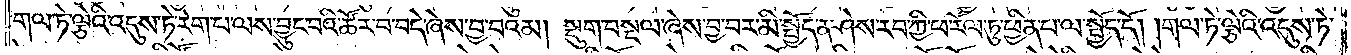གལ་ཏེ་ལྕེའི་འདུས་ཏེ་རེག་པ་ལས་བྱུང་བའི་ཚོར་བ་བདེ་ཞེས་བྱ་བའམ། སྡུག་བསྔལ་ཞེས་བྱ་བར་མི་སྤྱོད་ན་ཤེས་རབ་ཀྱི་ཕ་རོལ་ཏུ་ཕྱིན་པ་ལ་སྤྱོད་དོ། །གལ་ཏེ་ལྕེའི་འདུས་ཏེ་
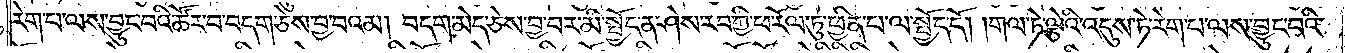རེག་པ་ལས་བྱུང་བའི་ཚོར་བ་བདག་ཅེས་བྱ་བའམ། བདག་མེད་ཅེས་བྱ་བར་མི་སྤྱོད་ན་ཤེས་རབ་ཀྱི་ཕ་རོལ་ཏུ་ཕྱིན་པ་ལ་སྤྱོད་དོ། །གལ་ཏེ་ལྕེའི་འདུས་ཏེ་རེག་པ་ལས་བྱུང་བའི་
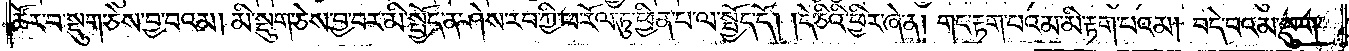ཚོར་བ་སྡུག་ཅེས་བྱ་བའམ། མི་སྡུག་ཅེས་བྱ་བར་མི་སྤྱོད་ན་ཤེས་རབ་ཀྱི་ཕ་རོལ་ཏུ་ཕྱིན་པ་ལ་སྤྱོད་དོ། །དེ་ཅིའི་ཕྱིར་ཞེ་ན། གང་རྟག་པའམ་མི་རྟག་པའམ། བདེ་བའམ་སྡུག་
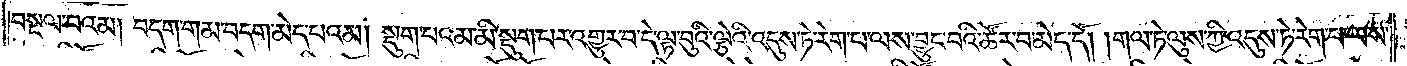བསྔལ་བའམ། བདག་གམ་བདག་མེད་པའམ། སྡུག་པའམ་མི་སྡུག་པར་འགྱུར་བ་དེ་ལྟ་བུའི་ལྕེའི་འདུས་ཏེ་རེག་པ་ལས་བྱུང་བའི་ཚོར་བ་མེད་དོ། །གལ་ཏེ་ལུས་ཀྱི་འདུས་ཏེ་རེག་པ་ལས་
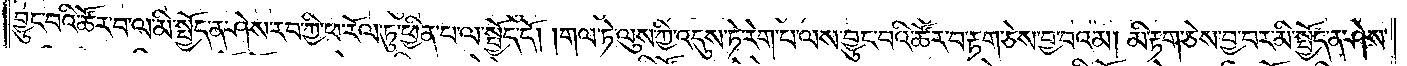བྱུང་བའི་ཚོར་བ་ལ་མི་སྤྱོད་ན་ཤེས་རབ་ཀྱི་ཕ་རོལ་ཏུ་ཕྱིན་པ་ལ་སྤྱོད་དོ། །གལ་ཏེ་ལུས་ཀྱི་འདུས་ཏེ་རེག་པ་ལས་བྱུང་བའི་ཚོར་བ་རྟག་ཅེས་བྱ་བའམ། མི་རྟག་ཅེས་བྱ་བར་མི་སྤྱོད་ན་ཤེས་
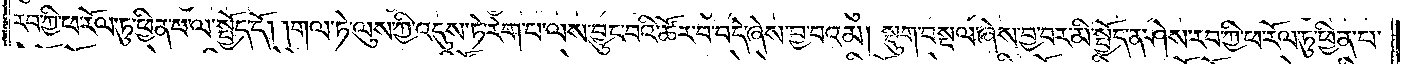རབ་ཀྱི་ཕ་རོལ་ཏུ་ཕྱིན་པ་ལ་སྤྱོད་དོ། །གལ་ཏེ་ལུས་ཀྱི་འདུས་ཏེ་རེག་པ་ལས་བྱུང་བའི་ཚོར་བ་བདེ་ཞེས་བྱ་བའམ། སྡུག་བསྔལ་ཞེས་བྱ་བར་མི་སྤྱོད་ན་ཤེས་རབ་ཀྱི་ཕ་རོལ་ཏུ་ཕྱིན་པ་
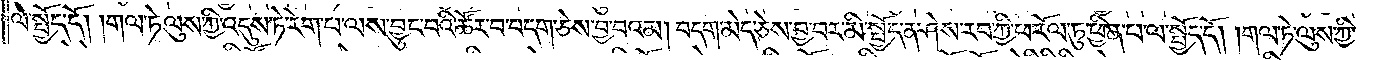ལ་སྤྱོད་དོ། །གལ་ཏེ་ལུས་ཀྱི་འདུས་ཏེ་རེག་པ་ལས་བྱུང་བའི་ཚོར་བ་བདག་ཅེས་བྱ་བའམ། བདག་མེད་ཅེས་བྱ་བར་མི་སྤྱོད་ན་ཤེས་རབ་ཀྱི་ཕ་རོལ་ཏུ་ཕྱིན་པ་ལ་སྤྱོད་དོ། །གལ་ཏེ་ལུས་ཀྱི་
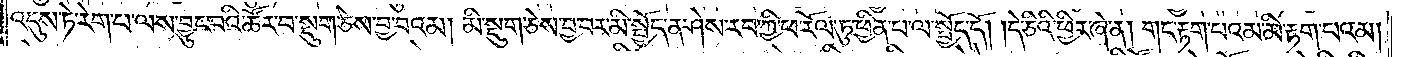འདུས་ཏེ་རེག་པ་ལས་བྱུང་བའི་ཚོར་བ་སྡུག་ཅེས་བྱ་བའམ། མི་སྡུག་ཅེས་བྱ་བར་མི་སྤྱོད་ན་ཤེས་རབ་ཀྱི་ཕ་རོལ་ཏུ་ཕྱིན་པ་ལ་སྤྱོད་དོ། །དེ་ཅིའི་ཕྱིར་ཞེ་ན། གང་རྟག་པའམ་མི་རྟག་པའམ།
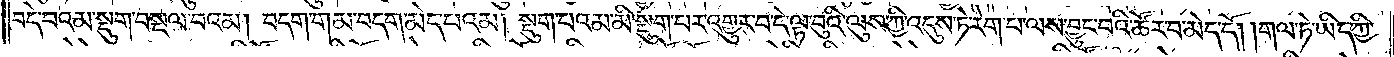བདེ་བའམ་སྡུག་བསྔལ་བའམ། བདག་གམ་བདག་མེད་པའམ། སྡུག་པའམ་མི་སྡུག་པར་འགྱུར་བ་དེ་ལྟ་བུའི་ལུས་ཀྱི་འདུས་ཏེ་རེག་པ་ལས་བྱུང་བའི་ཚོར་བ་མེད་དོ། །གལ་ཏེ་ཡིད་ཀྱི་
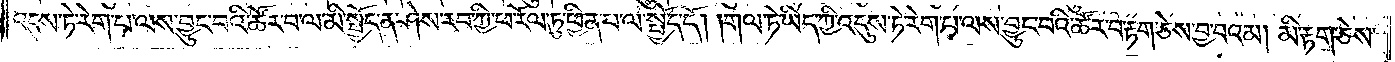འདུས་ཏེ་རེག་པ་ལས་བྱུང་བའི་ཚོར་བ་ལ་མི་སྤྱོད་ན་ཤེས་རབ་ཀྱི་ཕ་རོལ་ཏུ་ཕྱིན་པ་ལ་སྤྱོད་དོ། །གལ་ཏེ་ཡིད་ཀྱི་འདུས་ཏེ་རེག་པ་ལས་བྱུང་བའི་ཚོར་བ་རྟག་ཅེས་བྱ་བའམ། མི་རྟག་ཅེས་
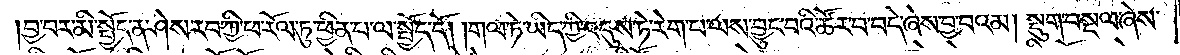བྱ་བར་མི་སྤྱོད་ན་ཤེས་རབ་ཀྱི་ཕ་རོལ་ཏུ་ཕྱིན་པ་ལ་སྤྱོད་དོ། །གལ་ཏེ་ཡིད་ཀྱི་འདུས་ཏེ་རེག་པ་ལས་བྱུང་བའི་ཚོར་བ་བདེ་ཞེས་བྱ་བའམ། སྡུག་བསྔལ་ཞེས་
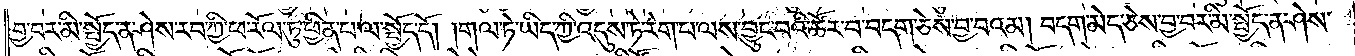བྱ་བར་མི་སྤྱོད་ན་ཤེས་རབ་ཀྱི་ཕ་རོལ་ཏུ་ཕྱིན་པ་ལ་སྤྱོད་དོ། །གལ་ཏེ་ཡིད་ཀྱི་འདུས་ཏེ་རེག་པ་ལས་བྱུང་བའི་ཚོར་བ་བདག་ཅེས་བྱ་བའམ། བདག་མེད་ཅེས་བྱ་བར་མི་སྤྱོད་ན་ཤེས་
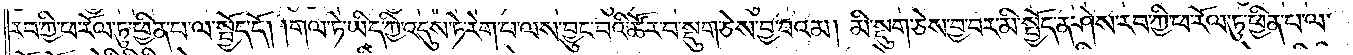རབ་ཀྱི་ཕ་རོལ་ཏུ་ཕྱིན་པ་ལ་སྤྱོད་དོ། །གལ་ཏེ་ཡིད་ཀྱི་འདུས་ཏེ་རེག་པ་ལས་བྱུང་བའི་ཚོར་བ་སྡུག་ཅེས་བྱ་བའམ། མི་སྡུག་ཅེས་བྱ་བར་མི་སྤྱོད་ན་ཤེས་རབ་ཀྱི་ཕ་རོལ་ཏུ་ཕྱིན་པ་ལ་
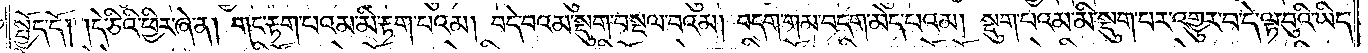སྤྱོད་དོ། །དེ་ཅིའི་ཕྱིར་ཞེ་ན། གང་རྟག་པའམ་མི་རྟག་པའམ། བདེ་བའམ་སྡུག་བསྔལ་བའམ། བདག་གམ་བདག་མེད་པའམ། སྡུག་པའམ་མི་སྡུག་པར་འགྱུར་བ་དེ་ལྟ་བུའི་ཡིད་
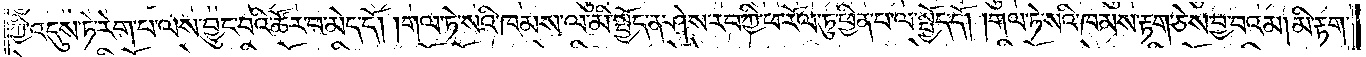ཀྱི་འདུས་ཏེ་རེག་པ་ལས་བྱུང་བའི་ཚོར་བ་མེད་དོ། །གལ་ཏེ་སའི་ཁམས་ལ་མི་སྤྱོད་ན་ཤེས་རབ་ཀྱི་ཕ་རོལ་ཏུ་ཕྱིན་པ་ལ་སྤྱོད་དོ། །གལ་ཏེ་སའི་ཁམས་རྟག་ཅེས་བྱ་བའམ། མི་རྟག་
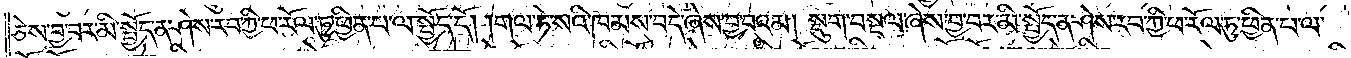ཅེས་བྱ་བར་མི་སྤྱོད་ན་ཤེས་རབ་ཀྱི་ཕ་རོལ་ཏུ་ཕྱིན་པ་ལ་སྤྱོད་དོ། །གལ་ཏེ་སའི་ཁམས་བདེ་ཞེས་བྱ་བའམ། སྡུག་བསྔལ་ཞེས་བྱ་བར་མི་སྤྱོད་ན་ཤེས་རབ་ཀྱི་ཕ་རོལ་ཏུ་ཕྱིན་པ་ལ་
